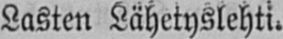Lasten Lähetyslehti.
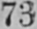73
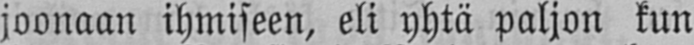joonaan ihmiseen, eli yhtä paljon kun
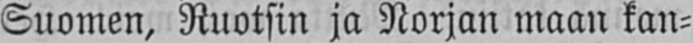Suomen, Ruotsin ja Norjan maan kan-
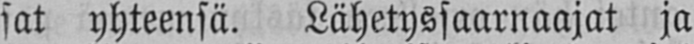sat yhteensä. Lähetyssaarnaajat ja
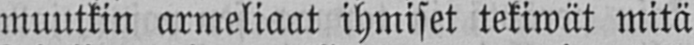muutkin armeliaat ihmiset tekiwät mitä
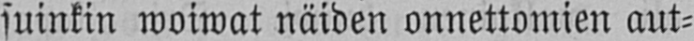suinkin woiwat näiden onnettomien aut-
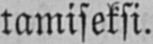tamiseksi.
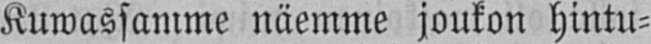Kuwassamme näemme joukon hintu-
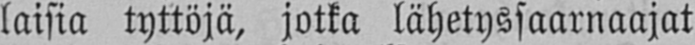laisia tyttöjä, jotka lähetyssaarnaajat
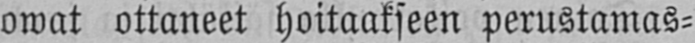owat ottaneet hoitaakseen perustamas-
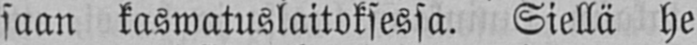saan kaswatuslaitoksessa. Siellä he
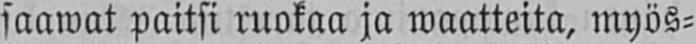saawat paitsi ruokaa ja waatteita, myös-
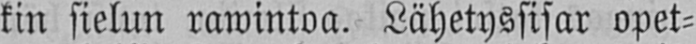kin sielun rawintoa. Lähetyssisar opet-
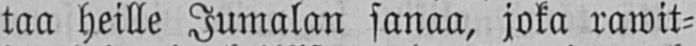taa heille Jumalan sanaa, joka rawit-
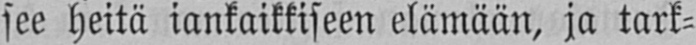see heitä iankaikkiseen elämään, ja tark-
